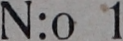N:o 1
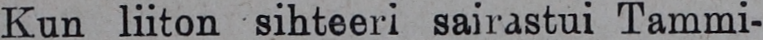Kun liiton sihteeri sairastui Tammi-
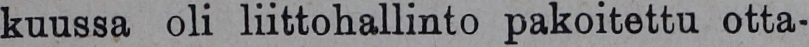kuussa oli liittohallinto pakoitettu otta-
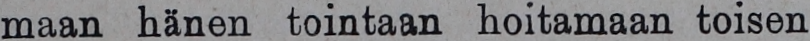maan hänen tointaan hoitamaan toisen
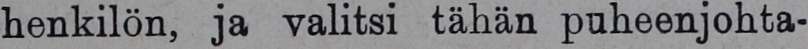henkilön, ja valitsi tähän puheenjohta-
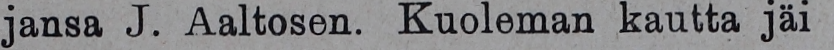jansa J. Aaltosen. Kuoleman kautta jäi
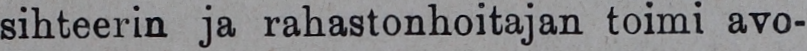sihteerin ja rahastonhoitajan toimi avo-
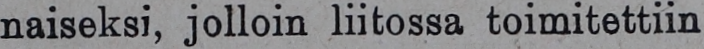naiseksi, jolloin liitossa toimitettiin ylei-
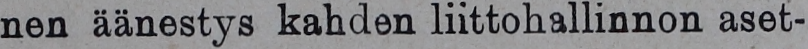nen äänestys kahden liittohallinnon aset-
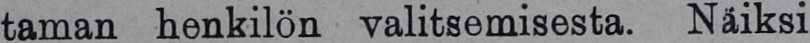taman henkilön valitsemisesta. Näiksi
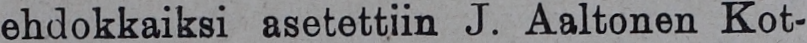ehdokkaiksi asetettiin J. Aaltonen Kot-
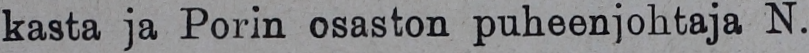kasta ja Porin osaston puheenjohtaja N.
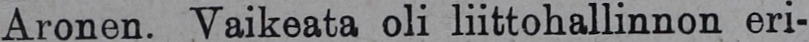Aronen. Vaikeata oli liittohallinnon eri-
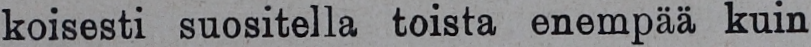koisesti suositella toista enempää kuin
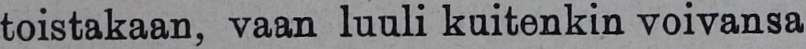toistakaan, vaan luuli kuitenkin voivansa
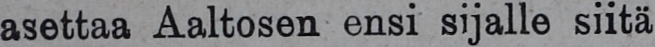asettaa Aaltosen ensi sijalle siitä syystä,
